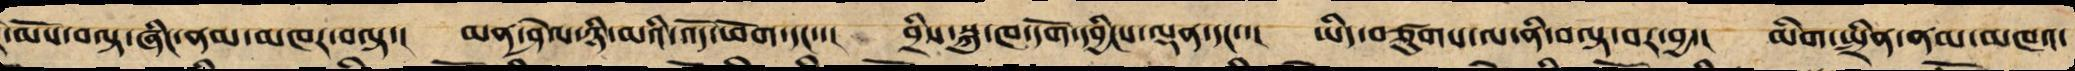་མོས་བལྟ་ཞིང་ནམ་མཁར་བལྟ་། མན་ཤེལ་ཉི་མའི་འོད་ཕོག་དང་་། བྲིས་སྐུ་ཁ་དོག་དབྱིངས་ལྡན་དང་་། ཡིད་བཙུགས་ལ་ནི་བལྟ་བར་བྱ་། མིག་སྤྲིན་ནམ་མཁའ་
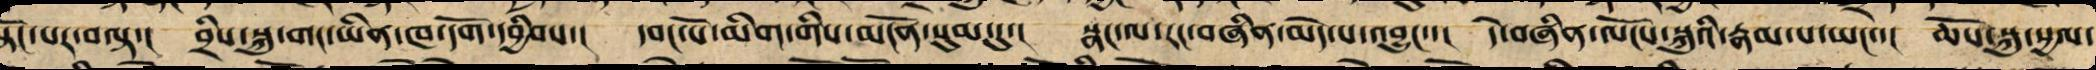སྟོང་པར་བལྟ་། བྲིས་སྐུ་གང་ཡིན་ཁ་དོག་དབྱིབས་། དབང་པོ་མིག་གིས་མངོན་སུམ་དུ་། སྣང་ལ་རང་བཞིན་མེད་པ་འབྱུང་་། དེ་བཞིན་ལོངས་སྐུའི་རྣམ་པ་ཡང་་། ཆོས་སྐུ་སྱལ་
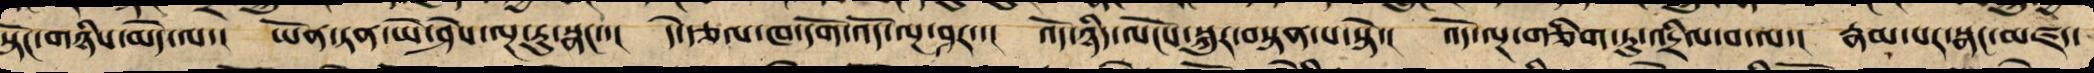སྟོང་གཉིས་མེད་ལ་། ཡོན་ཏན་ཡེ་ཤེས་ལྔ་རུ་སྣང་་། དེ་རྩལ་ཁ་དོག་འོད་ལྔ་ཤར་། འོད་ཉིད་ལོངས་སྐུར་བསྟན་པ་སྟེ་། འོད་ལྔ་གཅིག་ཏུ་འདྲིལ་བ་ལ་། རྣམ་པར་སྣང་མཛད་
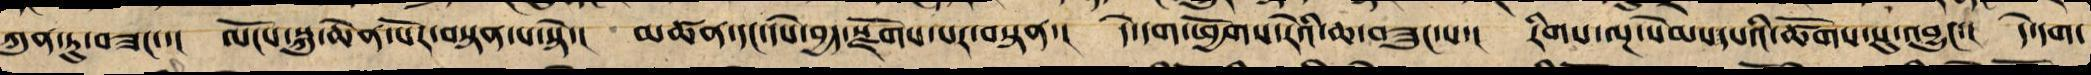ཀུན་ཏུ་བཟང་་། ལོངས་སྐུ་ཆེན་པོར་བསྟན་པ་སྟེ་། མཚན་དང་དཔེ་བྱད་སྫོགས་པར་བསྟན་། དེ་དག་ཕྱོགས་རེའི་ཆ་བཟུང་པ་། རིགས་ལྔ་སེམས་དཔའི་ཚོགས་སུ་བྱུང་། དེ་དག་
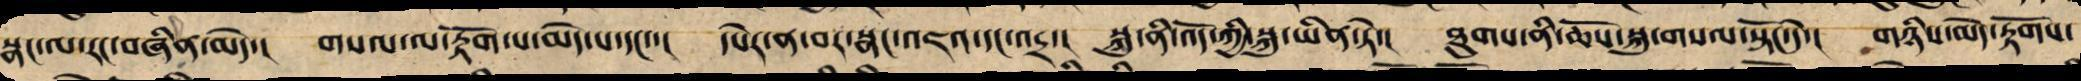སྣང་ལ་རང་བཞིན་མེད་། གསལ་ལ་རྟོག་པ་མེད་པ་སྟེ་། དཔེར་ན་བར་སྣང་འཇའ་དང་འདྲ་། སྐུ་ནི་འོད་ཀྱི་སྐུ་ཡིན་་ཏེ། ཐུགས་ནི་གསལ་སྟོང་ཆོས་སྐུ་དེ་། གཉིས་མེད་རྟོགས་
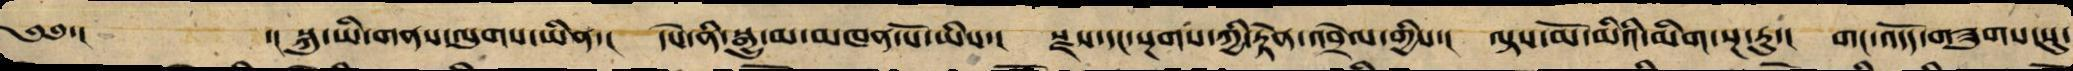༄༅་།  ་།སྐུ་ཡི་གནས་ལུགས་ཡིན་། དཔེ་ནི་སྒྱུ་མ་མཁན་པོ་ཡིས་། སྫས་དང་སྔགས་ཀྱི་རྟེན་འབྲེལ་གྱིས་། ལྟས་མོ་མིའི་མིག་སྔ་རུ་། གང་འདོད་གཟུགས་སུ་
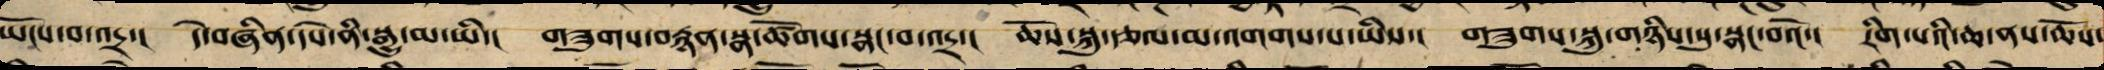ཡོངས་བ་འདྲ་། དེ་བཞིན་དཔེ་ནི་སྒྱུ་མ་ཡི་། གཟུགས་བརྙན་སྣ་ཚོགས་སྣང་བ་འདྲ་། ཆོས་སྐུ་རྩལ་མ་འགགས་པ་ཡིས་། གཟུགས་སྐུ་གཉིས་སུ་སྣང་བའོ་། རིག་པའི་ཆ་ནས་ཆོས་
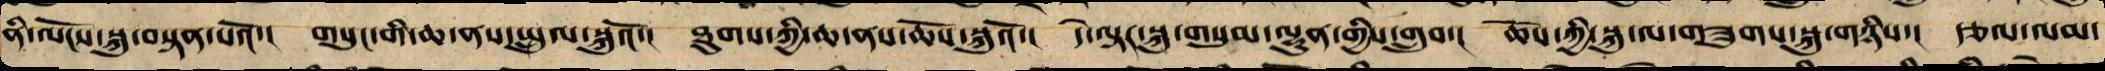ནི་ལོངས་སྐུར་བསྟན་པའོ་། གསུང་གི་ཆ་ལས་སྤྲུལ་སྐུའོ་། ཐུགས་ཀྱི་ཆ་ནས་ཆོས་སྐུའོ་། དེ་ལྟར་སྐུ་གསུམ་ལྷུན་གྱིས་གྲུབ་། ཆོས་ཀྱི་སྐུ་ལས་གཟུགས་སྐུ་གཉིས་། རྩལ་ལམ་
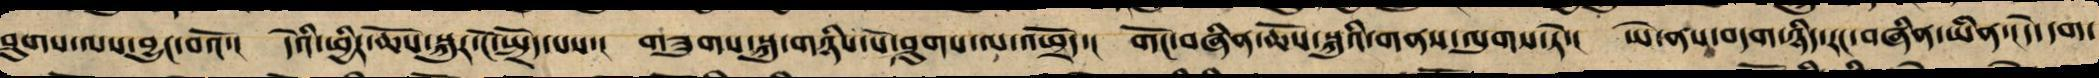ཤུགས་ལས་བྱུང་བའོ་། དེའི་ཕྱིར་ཆོས་སྐུ་ངོ་སྤྲོད་པས་། གཟུགས་སྐུ་གཉིས་པོ་ཤུགས་ལ་འཕྲོད་། གོང་བཞིན་ཆོས་སྐུའི་གནས་ལུགས་དེ་། ཡེ་ནས་བདག་གི་རང་བཞིན་ཡིན་། དེ་དག་
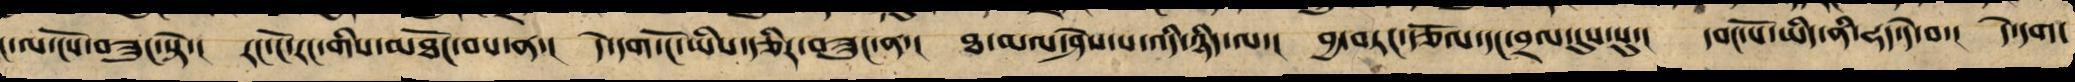ང་ལ་ངོས་བཟུང་སྟེ་། ངོ་བོ་རང་གིས་མཐོང་བ་ན་། དེ་དག་ངོ་ཡིས་རྩིར་བཟུང་ནས་། ཐ་མལ་ཤེས་པ་འདི་ཉིད་ལ་། བྱ་བཏང་རྩོལ་དང་བྲལ་དུས་སུ་། དབང་པོ་ཡིད་ནི་ཧད་དེ་བ་། དེ་དག་
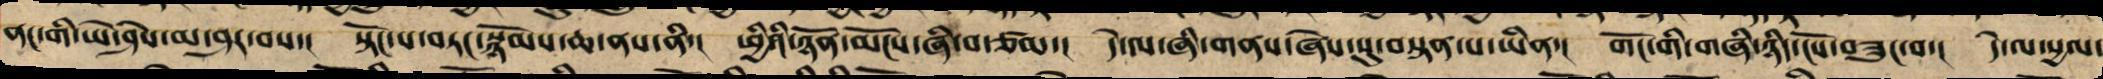ནང་གི་ཡེ་ཤེས་མ་ཤར་བས་། སྟོང་པ་བཏང་སྙོམས་ཆ་ནས་ནི་། ཕྱིའི་ཉོན་མོངས་ཞི་བ་ཙམ་། དེ་ལ་ཞི་གནས་ཞེས་སུ་བསྟན་པ་ཡིན་། གོང་གི་གཞི་ཉིད་ངོས་བཟུང་བ་། དེ་ལ་སྱལ་
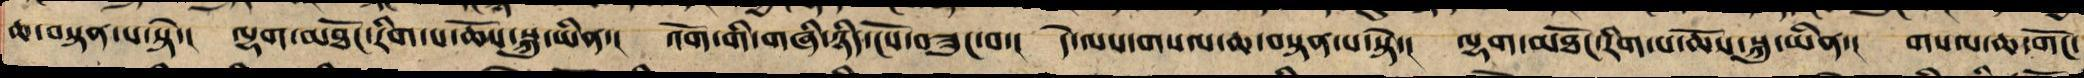ཆ་བརྟན་པ་སྟེ་། ལྷག་མཐོང་རིག་པ་ཆོས་སྐུ་ཡིན་། འོག་གི་གཞི་ཉིད་ངོས་བཟུང་བ་། དེ་ལས་གསལ་ཆ་བསྟན་པ་སྟེ་། ལྷག་མཐོང་རིག་པ་ཆོས་སྐུ་ཡིན་། གསལ་ཆ་གོང་
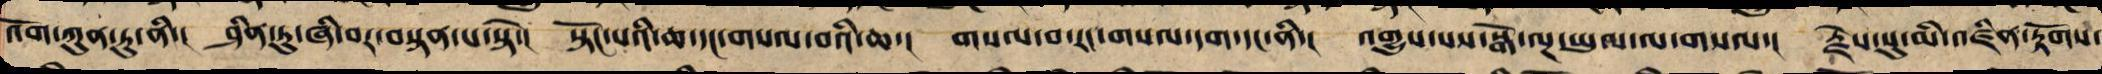འོག་ཀུན་ཏུ་ནི་། ཤིན་ཏུ་ཞིབ་པར་བསྟན་པ་སྟེ་། སྟོང་པའི་ཆ་དང་གསལ་བའི་ཆ་། གསལ་བ་རང་གསལ་དག་དང་ནི་། འགྱུས་པས་སྒོ་ལྔ་ཡུལ་ལ་གསལ་། རྗེས་སུ་མི་འཛིན་རྟོགས་
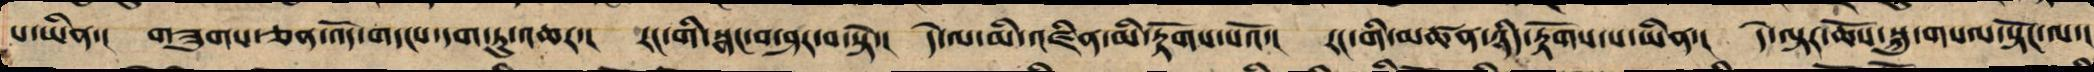པ་ཡིན་། གཟུགས་ཅན་འོད་གདངས་དག་ཏུ་འཆར་། རང་གི་སྣང་བར་ཤར་བ་སྟེ་། དེ་ལ་མི་འཛིན་མི་རྟོགས་པའོ་། རང་གི་མཚན་ཉིད་རྟོགས་པ་ཡིན་། དེ་ལྟར་ཆོས་སྐུ་གསལ་སྟོང་ལ་།
